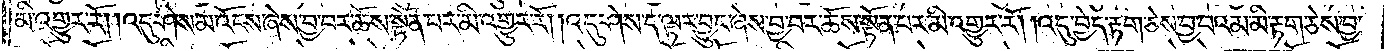མི་འགྱུར་རོ། །འདུ་ཤེས་མ་འོངས་ཞེས་བྱ་བར་ཆོས་སྟོན་པར་མི་འགྱུར་རོ། །འདུ་ཤེས་ད་ལྟར་བྱུང་ཞེས་བྱ་བར་ཆོས་སྟོན་པར་མི་འགྱུར་རོ། །འདུ་བྱེད་རྟག་ཅེས་བྱ་བའམ་མི་རྟག་ཅེས་བྱ་
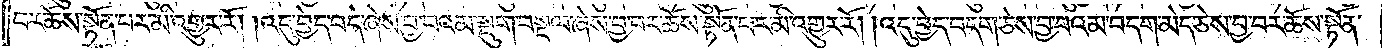བར་ཆོས་སྟོན་པར་མི་འགྱུར་རོ། །འདུ་བྱེད་བདེ་ཞེས་བྱ་བའམ་སྡུག་བསྔལ་ཞེས་བྱ་བར་ཆོས་སྟོན་པར་མི་འགྱུར་རོ། །འདུ་བྱེད་བདག་ཅེས་བྱ་བའམ་བདག་མེད་ཅེས་བྱ་བར་ཆོས་སྟོན་
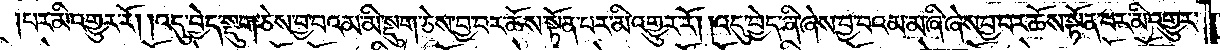པར་མི་འགྱུར་རོ། །འདུ་བྱེད་སྡུག་ཅེས་བྱ་བའམ་མི་སྡུག་ཅེས་བྱ་བར་ཆོས་སྟོན་པར་མི་འགྱུར་རོ། །འདུ་བྱེད་ཞི་ཞེས་བྱ་བའམ་མ་ཞི་ཞེས་བྱ་བར་ཆོས་སྟོན་པར་མི་འགྱུར་
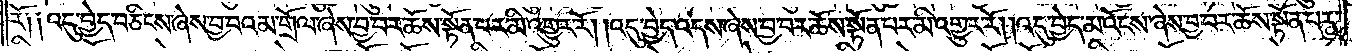རོ༑ ༑འདུ་བྱེད་བཅིངས་ཞེས་བྱ་བའམ་གྲོལ་ཞེས་བྱ་བར་ཆོས་སྟོན་པར་མི་འགྱུར་རོ། །འདུ་བྱེད་འདས་ཞེས་བྱ་བར་ཆོས་སྟོན་པར་མི་འགྱུར་རོ། །འདུ་བྱེད་མ་འོངས་ཞེས་བྱ་བར་ཆོས་སྟོན་པར་
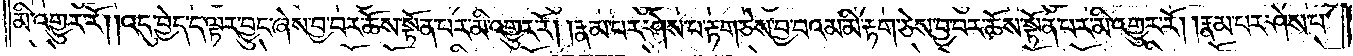མི་འགྱུར་རོ། །འདུ་བྱེད་ད་ལྟར་བྱུང་ཞེས་བྱ་བར་ཆོས་སྟོན་པར་མི་འགྱུར་རོ། །རྣམ་པར་ཤེས་པ་རྟག་ཅེས་བྱ་བའམ་མི་རྟག་ཅེས་བྱ་བར་ཆོས་སྟོན་པར་མི་འགྱུར་རོ། །རྣམ་པར་ཤེས་པ་
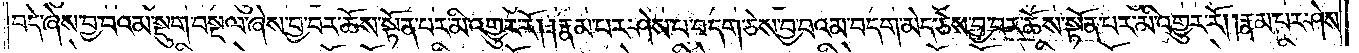བདེ་ཞེས་བྱ་བའམ་སྡུག་བསྔལ་ཞེས་བྱ་བར་ཆོས་སྟོན་པར་མི་འགྱུར་རོ། །རྣམ་པར་ཤེས་པ་བདག་ཅེས་བྱ་བའམ་བདག་མེད་ཅེས་བྱ་བར་ཆོས་སྟོན་པར་མི་འགྱུར་རོ། །རྣམ་པར་ཤེས་
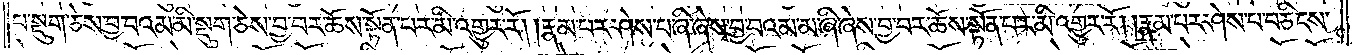པ་སྡུག་ཅེས་བྱ་བའམ་མི་སྡུག་ཅེས་བྱ་བར་ཆོས་སྟོན་པར་མི་འགྱུར་རོ། །རྣམ་པར་ཤེས་པ་ཞི་ཞེས་བྱ་བའམ་མ་ཞི་ཞེས་བྱ་བར་ཆོས་སྟོན་པར་མི་འགྱུར་རོ། །རྣམ་པར་ཤེས་པ་བཅིངས་
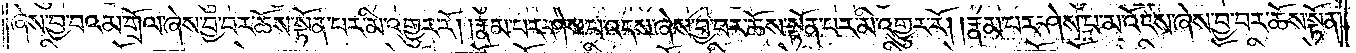ཞེས་བྱ་བའམ་གྲོལ་ཞེས་བྱ་བར་ཆོས་སྟོན་པར་མི་འགྱུར་རོ། །རྣམ་པར་ཤེས་པ་འདས་ཞེས་བྱ་བར་ཆོས་སྟོན་པར་མི་འགྱུར་རོ། །རྣམ་པར་ཤེས་པ་མ་འོངས་ཞེས་བྱ་བར་ཆོས་སྟོན་
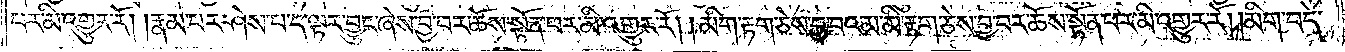པར་མི་འགྱུར་རོ། །རྣམ་པར་ཤེས་པ་ད་ལྟར་བྱུང་ཞེས་བྱ་བར་ཆོས་སྟོན་པར་མི་འགྱུར་རོ། །མིག་རྟག་ཅེས་བྱ་བའམ་མི་རྟག་ཅེས་བྱ་བར་ཆོས་སྟོན་པར་མི་འགྱུར་རོ། །མིག་བདེ་
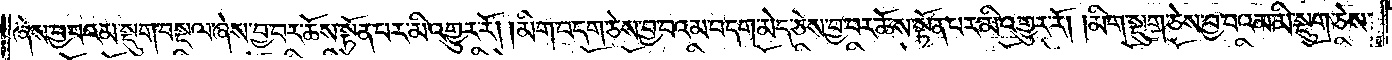ཞེས་བྱ་བའམ་སྡུག་བསྔལ་ཞེས་བྱ་བར་ཆོས་སྟོན་པར་མི་འགྱུར་རོ། །མིག་བདག་ཅེས་བྱ་བའམ་བདག་མེད་ཅེས་བྱ་བར་ཆོས་སྟོན་པར་མི་འགྱུར་རོ། །མིག་སྡུག་ཅེས་བྱ་བའམ་མི་སྡུག་ཅེས་
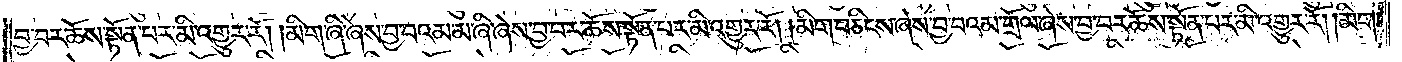བྱ་བར་ཆོས་སྟོན་པར་མི་འགྱུར་རོ། །མིག་ཞི་ཞེས་བྱ་བའམ་མ་ཞི་ཞེས་བྱ་བར་ཆོས་སྟོན་པར་མི་འགྱུར་རོ། །མིག་བཅིངས་ཞེས་བྱ་བའམ་གྲོལ་ཞེས་བྱ་བར་ཆོས་སྟོན་པར་མི་འགྱུར་རོ། །མིག་
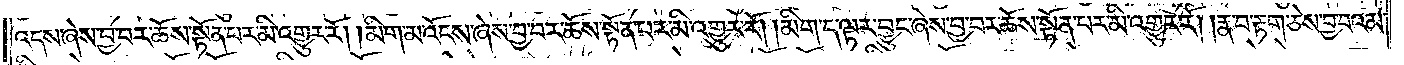འདས་ཞེས་བྱ་བར་ཆོས་སྟོན་པར་མི་འགྱུར་རོ། །མིག་མ་འོངས་ཞེས་བྱ་བར་ཆོས་སྟོན་པར་མི་འགྱུར་རོ། །མིག་ད་ལྟར་བྱུང་ཞེས་བྱ་བར་ཆོས་སྟོན་པར་མི་འགྱུར་རོ། །རྣ་བ་རྟག་ཅེས་བྱ་བའམ་
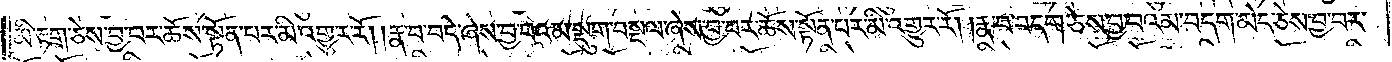མི་རྟག་ཅེས་བྱ་བར་ཆོས་སྟོན་པར་མི་འགྱུར་རོ། །རྣ་བ་བདེ་ཞེས་བྱ་བའམ་སྡུག་བསྔལ་ཞེས་བྱ་བར་ཆོས་སྟོན་པར་མི་འགྱུར་རོ། །རྣ་བ་བདག་ཅེས་བྱ་བའམ་བདག་མེད་ཅེས་བྱ་བར་
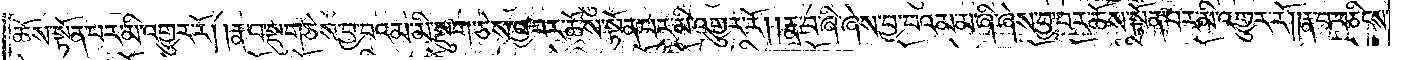ཆོས་སྟོན་པར་མི་འགྱུར་རོ། །རྣ་བ་སྡུག་ཅེས་བྱ་བའམ་མི་སྡུག་ཅེས་བྱ་བར་ཆོས་སྟོན་པར་མི་འགྱུར་རོ། །རྣ་བ་ཞི་ཞེས་བྱ་བའམ་མ་ཞི་ཞེས་བྱ་བར་ཆོས་སྟོན་པར་མི་འགྱུར་རོ། །རྣ་བ་བཅིངས་
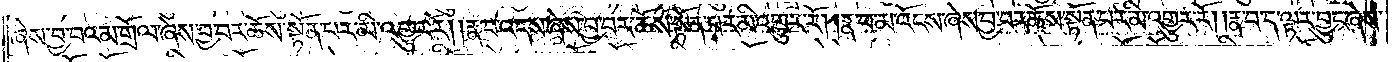ཞེས་བྱ་བའམ་གྲོལ་ཞེས་བྱ་བར་ཆོས་སྟོན་པར་མི་འགྱུར་རོ། །རྣ་བ་འདས་ཞེས་བྱ་བར་ཆོས་སྟོན་པར་མི་འགྱུར་རོ། །རྣ་བ་མ་འོངས་ཞེས་བྱ་བར་ཆོས་སྟོན་པར་མི་འགྱུར་རོ། །རྣ་བ་ད་ལྟར་བྱུང་ཞེས་
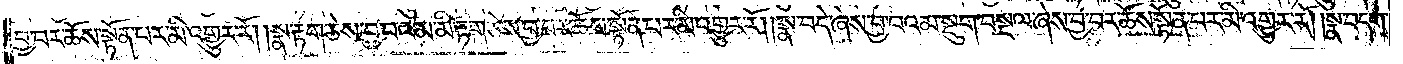བྱ་བར་ཆོས་སྟོན་པར་མི་འགྱུར་རོ། །སྣ་རྟག་ཅེས་བྱ་བའམ་མི་རྟག་ཅེས་བྱ་བར་ཆོས་སྟོན་པར་མི་འགྱུར་རོ། །སྣ་བདེ་ཞེས་བྱ་བའམ་སྡུག་བསྔལ་ཞེས་བྱ་བར་ཆོས་སྟོན་པར་མི་འགྱུར་རོ། །སྣ་བདག་
